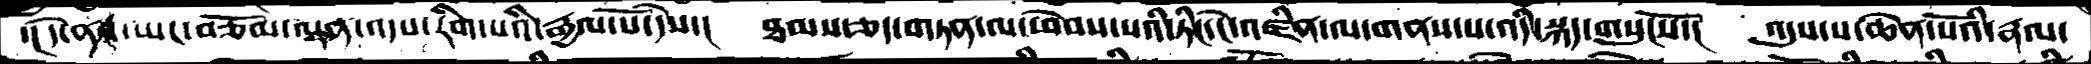་། དེ་ནས་ཡང་བཅོམ་ལྡན་འདས་རིག་པའི་རྒྱལ་པོ་དེས་། ཐམས་ཅད་གཏན་ལ་ཕེབས་པའི་ཏིང་ངེ་འཛིན་ལ་གནས་པ་འདི་སྐད་གསུངསོ་། འདུས་པ་ཆེན་པོའི་རྣལ་
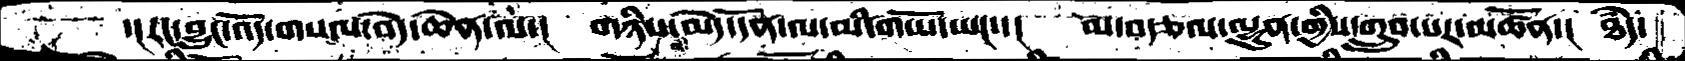་།རང་བྱུང་འོད་གསལ་བདེ་ཆེན་ལ་།  གཉིས་མེད་དོན་ལ་མི་གཡོ་ཡང་་། མ་བརྩལ་ལྷུན་གྱིས་གྲུབ་པར་མཚོན་། ཐཾད་
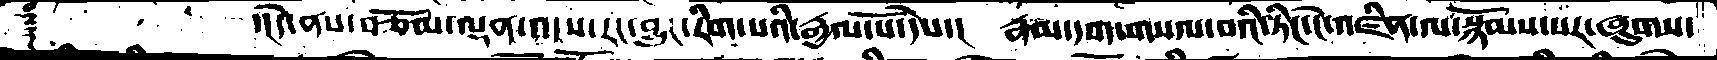༈       ་།དེ་ནས་བཅོམ་ལྡན་འད་ས་རང་བྱུང་རིག་པའི་རྒྱལ་པོ་དེས་།  རྣམ་དག་གསལ་བའི་ཏིང་ངེ་འཛིན་ལ་སྙོམས་པར་ཞུགས་
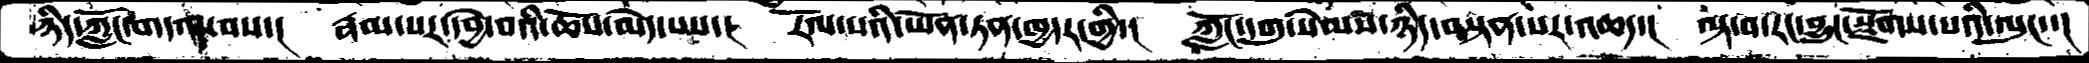ཉིད་ཀློང་གདལ་བས་། རྣམ་པར་དབྱེ་བའི་ཆོས་མེད་པས་། རོལ་པའི་ཡོན་ཏན་ཁྱདར་གྱི་། ཀློང་དགུ་སེམས་ཉིད་བསྟན་པར་འཆད་།  ལྟ་བ་རང་བྱུང་སྫོགས་པའི་ལུང་།
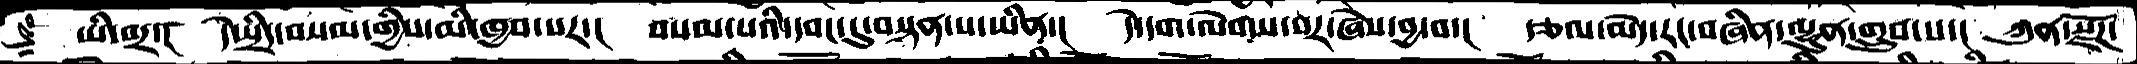ཡི་བར་།  དེ་སྲིད་བསམ་གྱིས་མི་ཁྱབ་པར་། བསམ་པའི་དབང་དུ་བསྟན་པ་ཡིན་། དེ་དག་ལེགས་པར་ཞེས་བྱ་བ་། རྩལ་མེད་རང་བཞིན་ལྷུན་གྲུབ་པ་། ཀུན་སྫོཌ་
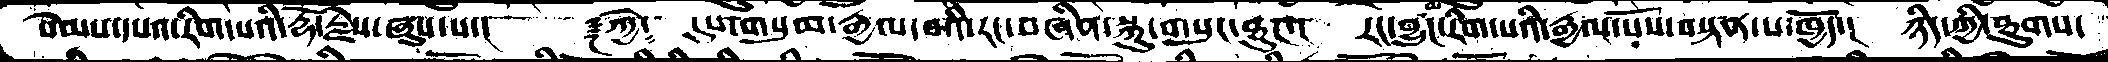སེམས་དཔའ་རིག་པའི་རྡོ་རྗེས་ཞུས་པ་།  ༈ཀྱེ༴ དུས་གསུམ་རྒྱལ་བའི་རང་བཞིན་སྐུ་གསུང་ཐུཌ་། རང་བྱུང་རིག་པའི་རྒྱལ་པོས་བསྟན་པ་ཁྱོད་། ཉིད་ཀྱི་ཐུགས་
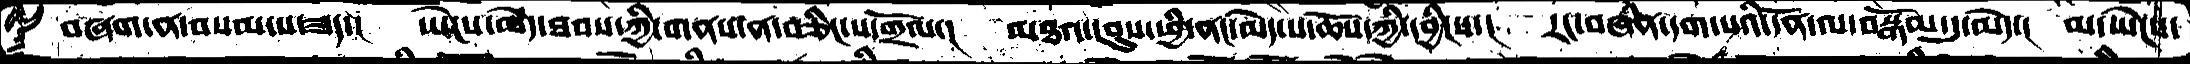བཞག་ན་བསམ་པ་ཟད་། ཡེངས་མེད་ཐབས་ཀྱི་གནས་ན་བཅིང་པ་གྲོལ་། མཐའ་དབུས་ཕྱི་ནང་མེད་པ་ཆོས་ཀྱི་དབྱིངས་། རང་བཞིན་དག་པའི་དོན་ལ་བསྒོམ་དུ་མེད་། མ་ཡེངས་
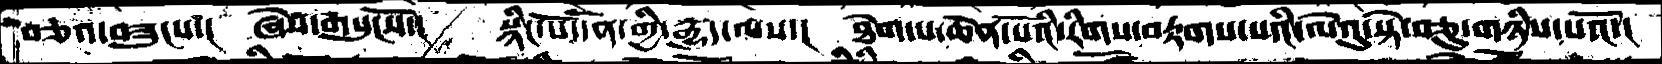བཅའ་བཟུངས་། ཞེས་གསུངསོ་།  སྙིང་པོ་དོན་གྱི་རྒྱུད་ལས་།  ཐེག་པ་ཆེན་པོའི་རིགས་བརྟགས་པའི་ལེའུ་སྟེ་བཅུ་གཉིས་པའོ་།
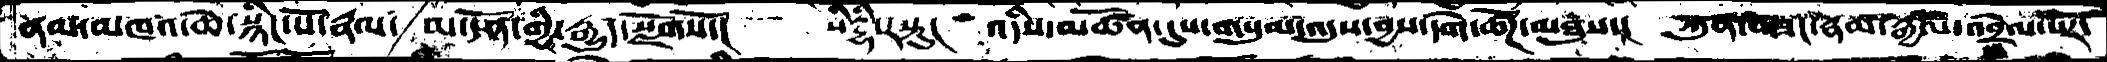ནམ་མཁའ་ཆེ་སྙིང་པོ་རྣལ་  མ་དོན་གྱི་རྒྱུད་སྫོགསོ་།   སིཏྡྷི་རསྟུ།  འདིས་མཚོན་དུས་གསུམ་འདུས་བྱས་དགེ་ཚོཌ་མཐུས་།  ཀུན་བཟང་རྣམ་རྒྱལ་འབྲེལ་པར་
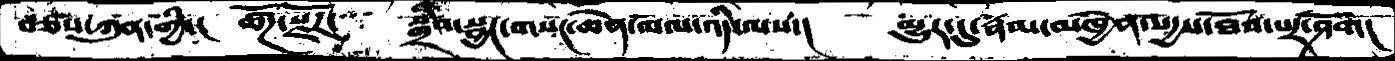བཅས་ཀུན་གྱིས་། ཚོཌ་སྫོཌ་ ་་ ་ སྒྲིབ་སྦྱང་གསང་ཆེན་མལ་འདི་ལས་།   མྱུར་དུ་རྣམ་མཁྱེན་སདྱས་ཐོབ་པར་ཤོག།
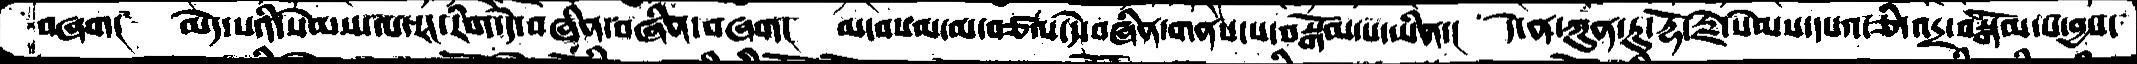བཞག། མེད་པའི་སེམས་ལ་རང་རིག་དེ་བཞིན་བཞིན་བཞག། མ་བསམ་མ་བཙལ་དེ་བཞིན་གནས་ས་བསྒོམ་པ་ཡིན་། དེ་ན་ཀུན་ཏུ་རྡོ་རྗེ་སེམས་དཔའ་ཅི་འདྲ་བསྒོམ་པ་བྱས་
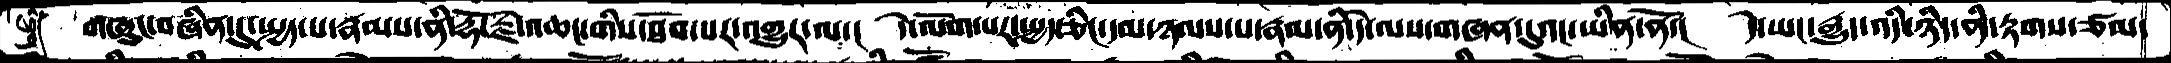གཞུང་བཞིན་དུ་སྤྱད་པ་རྣམས་ནི་རྡོ་རྗེ་འཆང་གིས་ཐོབ་པར་འགྱུར་ལ་། དེ་ལོག་པར་སྤྱད་ཅིང་དམ་ཉམས་པ་རྣམ་ནི་དེ་ལས་གཞན་དུའང་ཡིན་ནོ་།  དེ་ཡང་རྒྱུད་འདི་ཉིད་ནི་རྟགས་ཙམ་
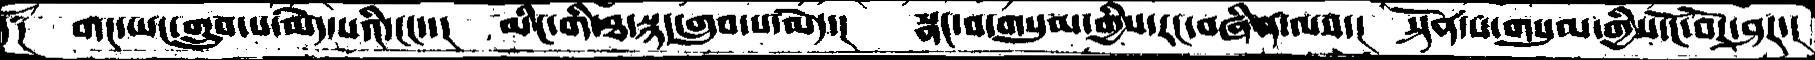༑  གང་ཡང་གྲུབ་པ་མེད་པའི་ངང་་། མིང་གི་ཐ་སྙད་གྲུབ་པ་མེད་། སྣང་བ་གསུམ་གྱིས་རང་བཞིན་ལས་། སྟོན་པ་གསུམ་གྱིས་ངོ་བོར་ཤར་།
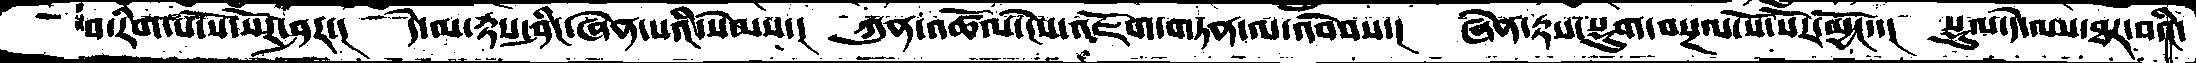བ་རིག་པ་སོ་སོར་ཤར་།  དེ་ལ་རྟས་ཤིང་ཞེན་པའི་སེམས་།  ཀུན་འཚོལ་ངེས་འཇོག་གཏན་ལ་འབེབས་།  ཞེན་རྟས་སྡུག་བསྔལ་སོ་སོར་མྱོང་་།  སྡུལ་དེ་ལས་ཐར་བའི་
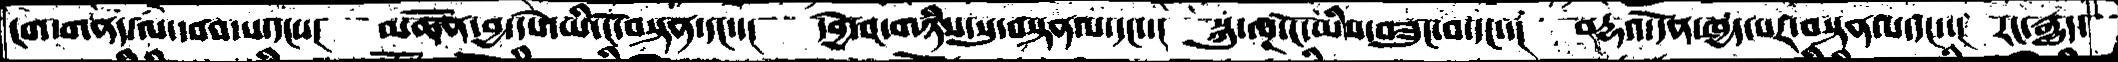ངག་གནད་ལ་དབབ་པ་དང་་།  མཚོན་བྱ་དཔེ་ཡི་ངོ་བསྟན་དང་་།  དབྱེ་བ་གཉིས་སུ་བསྟན་པ་དང་་།  སྐུ་ལྔ་ངོ་ཡིས་བཟུང་བ་དང་་།  བརྡའ་དོན་ཁྱད་པར་བསྟན་པ་དང་་།  རང་རྒྱུད་
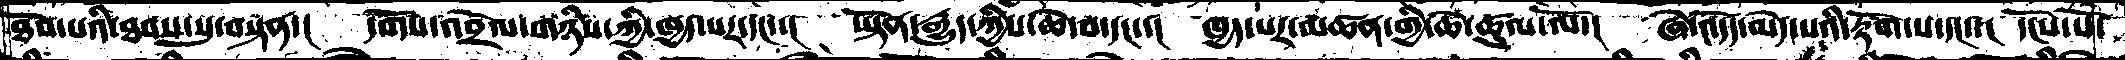ཐོབ་པའི་ཐབས་སུ་བསྟན་།  དགོས་འབྲེལ་གཉིས་ཀྱི་ཁྱད་པར་དང་་།  ཡྟོན་རྒྱུད་ཀྱིས་ཆེ་བ་དང་་།  ཁྱད་པར་མཚན་གྱི་ཆེ་ཚུལ་ལོ་།  ཞེ་འདོད་མེད་པའི་རྟོག་པ་དང་་།   དངོས་པོ་
